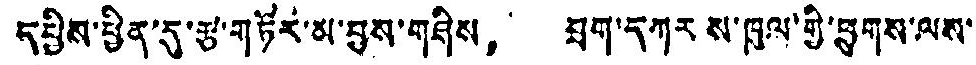དཔྱིས་ཕྱིན་དུ་རྩ་གཏོར་མ་བྱས་གཤིས， ཐག་དཀར ས་ཁུལ་གྱི་ཕྱུགས་ལས་
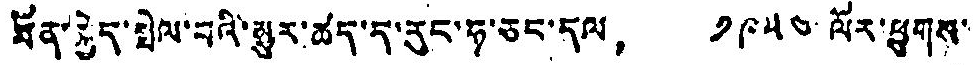ཐོན་སྐྱེད་སྤེལ་བའི་མྱུར་ཚད་ད་རུང་ཧ་ཅང་དལ， ༡༩༥༤ ལོར་ཕྱུགས་
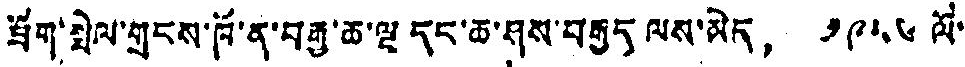ཐོག་སྤེལ་གྲངས་ཁོ་ན་བརྒྱ་ཆ་ལྔ དང་ཆ་ཤས་བརྒྱད ལས་མེད， ༡༩༥༦ ལོ་
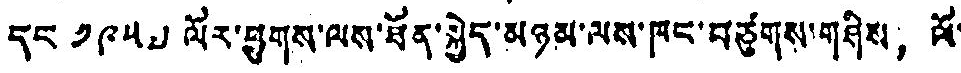དང ༡༩༥༧ ལོར་ཕྱུགས་ལས་ཐོན་སྐྱེད་མཉམ་ལས་ཁང་བཙུགས་གཤིས， ལོ་
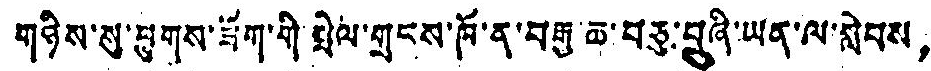གཉིས་སུ་ཕྱུགས་ཟོག་གི་སྤེལ་གྲངས་ཁོ་ན་བརྒྱ ཆ་བཅུ་བཞི་ཡན་ལ་སླེབས，
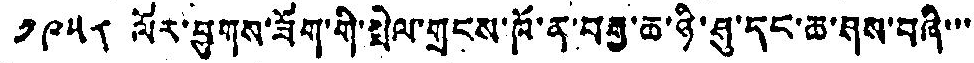༡༩༥༨ ལོར་ཕྱུགས་ཟོག་གི་སྤེལ་གྲངས་ཁོ་ན་བརྒྱ་ཆ་ཉི་ཤུ་དང་ཆ་ཤས་བཞི་་་
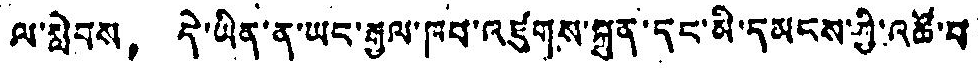ལ་སླེབས། དེ་ཡིན་ན་ཡང་རྒྱལ་ཁབ་འཛུགས་སྐྲུན་དང་མི་དམངས་ཀྱི་འཚོ་བ
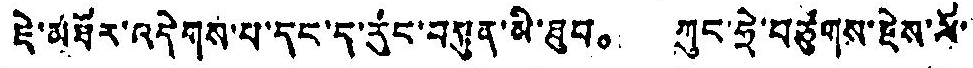ཇེ་མཐོར་འདེགས་པ་དང་ད་རུང་བསྟུན་མི་ཐུབ。 ཀུང་ཧྲེ་བཙུགས་རྗེས་ལོ་་
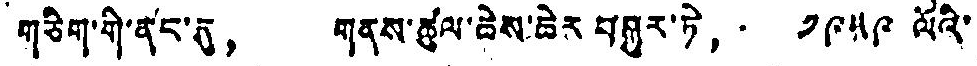གཅིག་གི་ནང་དུ， གནས་ཚུལ་ཆེས་ཆེར བསྐུར་ཏེ， ༡༩༥༩ ལོའི་
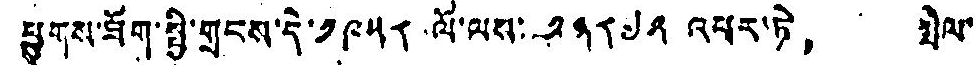ཕྱུགས་ཐོག་སྤྱི་གྲངས་དེ་༡༩༥༨ ལོ་ལས་ ༢༣༨༧༢ འཕར་ཏེ， སྤེལ་
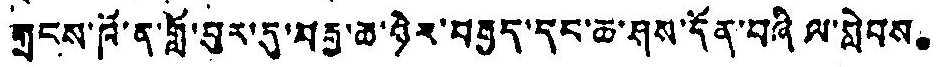གྲངས་ཁོ་ན་གློ་བུར་དུ་བརྒྱ་ཆ་ཉེར་བརྒྱད་དང་ཆ་ཤས་དོན་བཞི ལ་སླེབས。
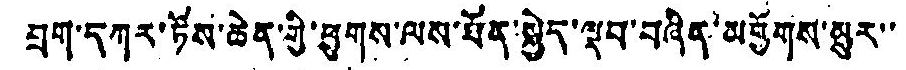བྲག་དཀར་ཏོས་ཆེན་གྱི་ཕྱུགས་ལས་ཐོན་སྐྱེད་ལྡབ་བཞིན་མཕྱོགས་མྱུར་་་
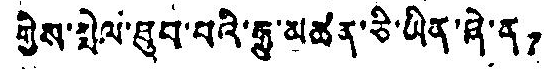གྱིས་སྤེལ་ཐུབ་པའི་རྒྱུ་མཚན་ཅི་ཡིན་ཞེ་ན？
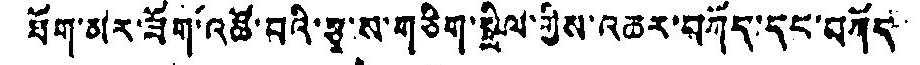ཐོག་མར་ཟོག་འཚོ་བའི་རྩྭ་ས་གཅིག་སྒྲིལ་གྱིས་འཆར་བཀོད་དང་བཀོད་་
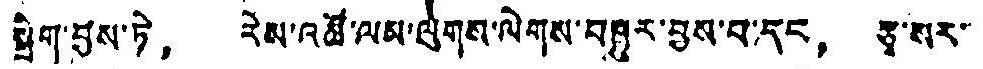སྒྲིག་བྱས་ཏེ， རེམ་འཚོ་ལམ་ལུགས་ལེགས་བཁུར་བྱས་པ་དང， རྩྭ་སར་་
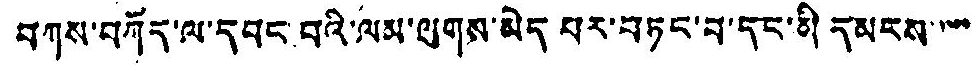བཀས་བཀོད་ལ་དབང་བའི་ལམ་ལུགས་མེད པར་བཏང་བ་དང་མི དམངས་་་་་
